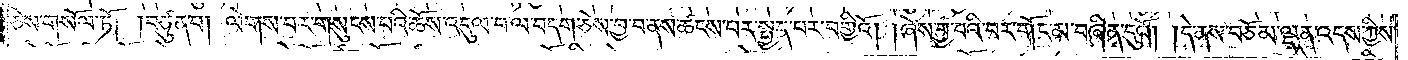ཅེས་གསོལ་ཏོ། །བཙུན་པ། ལེགས་པར་གསུངས་པའི་ཆོས་འདུལ་བ་ལ་བདག་ཅེས་བྱ་བ་ནས་ཚངས་པར་སྤྱད་པར་བགྱིའོ། །ཞེས་བྱ་བའི་བར་གོང་མ་བཞིན་དུའོ། །དེ་ནས་བཅོམ་ལྡན་འདས་ཀྱིས་
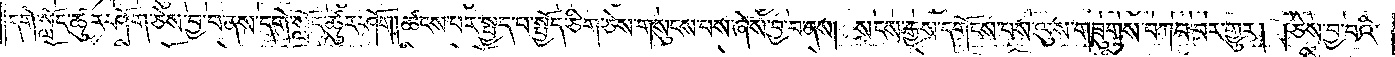དགེ་སློང་ཚུར་ཤོག་ཅེས་བྱ་བ་ནས་དགེ་སློང་ཚུར་ཤོག །ཚངས་པར་སྤྱད་པ་སྤྱོད་ཅིག་ཅེས་གསུངས་པས་ཞེས་བྱ་བ་ནས། སངས་རྒྱས་དགོངས་པས་ལུས་གཟུགས་བཀབ་བར་གྱུར། །ཅེས་བྱ་བའི་
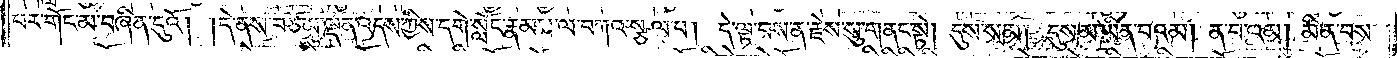པར་གོང་མ་བཞིན་དུའོ། །དེ་ནས་བཅོམ་ལྡན་འདས་ཀྱིས་དགེ་སློང་རྣམས་ལ་བཀའ་སྩལ་བ། དེ་ལྟ་བས་ན་རྗེས་སུ་གནང་སྟེ། དུས་སམ། དུས་མ་ཡིན་པའམ། ན་བ་འམ། མི་ན་བས་
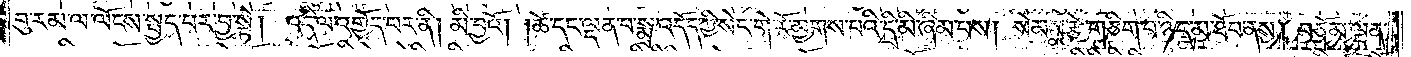བུ་རམ་ལ་ལོངས་སྤྱད་པར་བྱ་སྟེ། འདི་ལ་འགྱོད་པར་ནི། མི་བྱའོ། །ཚེ་དང་ལྡན་པ་སྨྲ་འདོད་ཀྱི་སེང་གེ་རོ་མྱགས་པའི་དྲི་མི་ཞིམ་པས། སེམས་རྩེ་གཅིག་པ་ཉིད་མ་ཐོབ་ནས། བཅོམ་ལྡན་
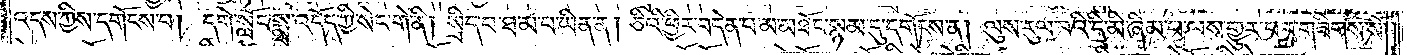འདས་ཀྱིས་དགོངས་པ། དགེ་སློང་སྨྲ་འདོད་ཀྱི་སེང་གེ་ནི། སྲིད་པ་ཐ་མ་པ་ཡིན་ན། ཅིའི་ཕྱིར་བདེན་པ་མ་མཐོང་སྙམ་དུ་དགོངས་ན། ལུས་རུལ་བའི་དྲི་མི་ཞིམ་པ་ལས་གྱུར་བར་གཟིགས་སོ༎
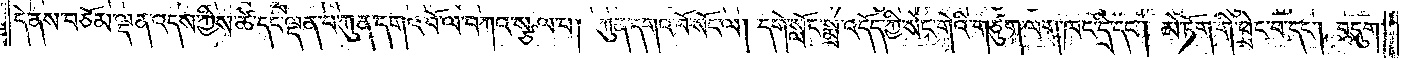དེ་ནས་བཅོམ་ལྡན་འདས་ཀྱིས་ཚེ་དང་ལྡན་པ་ཀུན་དགའ་བོ་ལ་བཀའ་སྩལ་པ། ཀུན་དགའ་བོ་སོང་ལ། དགེ་སློང་སྨྲ་འདོད་ཀྱི་སེང་གེའི་གཙུག་ལག་ཁང་དྲི་དང༌། མེ་ཏོག་གི་ཕྲེང་བ་དང༌། བདུག་
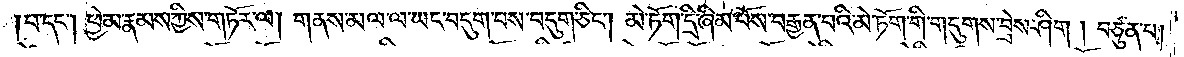།པ་དང༌། ཕྱེ་མ་རྣམས་ཀྱིས་གཏོར་ལ། གནས་མལ་ལ་ཡང་བདུག་པས་བདུག་ཅིང༌། མེ་ཏོག་དྲི་ཞིམ་པོས་བརྒྱན་པའི་མེ་ཏོག་གི་གདུགས་བྲེས་ཤིག །བཙུན་པ།
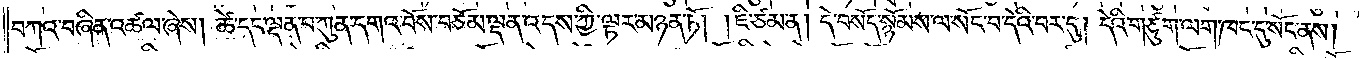བཀའ་བཞིན་འཚལ་ཞེས། ཚེ་དང་ལྡན་པ་ཀུན་དགའ་བོས་བཅོམ་ལྡན་འདས་ཀྱི་ལྟར་མཉན་ཏོ། །ཇི་ཙམ་ན། དེ་བསོད་སྙོམས་ལ་སོང་བ་དེའི་བར་དུ། དེའི་གཙུག་ལག་ཁང་དུ་སོང་ནས།
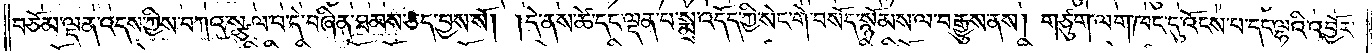བཅོམ་ལྡན་འདས་ཀྱིས་བཀའ་སྩལ་པ་དེ་བཞིན་ཐམས་ཅད་བྱས་སོ། །དེ་ནས་ཚེ་དང་ལྡན་པ་སྨྲ་འདོད་ཀྱི་སེང་གེ་བསོད་སྙོམས་ལ་བརྒྱུས་ནས། གཙུག་ལག་ཁང་དུ་འོངས་པ་དང་ལྷའི་འབྱོར་
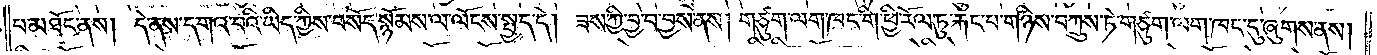པ་མཐོང་ནས། དེ་ནས་དགའ་བའི་ཡིད་ཀྱིས་བསོད་སྙོམས་ལ་ལོངས་སྤྱད་དེ། ཟས་ཀྱི་བྱ་བ་བྱས་ནས། གཙུག་ལག་ཁང་གི་ཕྱི་རོལ་ཏུ་རྐང་པ་གཉིས་བཀྲུས་ཏེ་གཙུག་ལག་ཁང་དུ་ཞུགས་ནས།
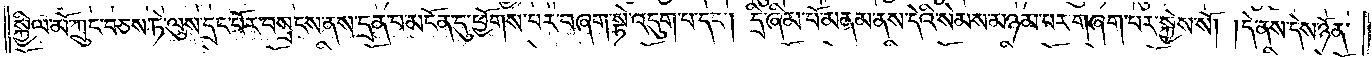སྐྱིལ་མོ་ཀྲུང་བཅས་ཏེ་ལུས་དྲང་པོར་བསྲངས་ནས་དྲན་པ་མངོན་དུ་ཕྱོགས་པར་བཞག་སྟེ་འདུག་པ་དང༌། དྲི་ཞིམ་པོ་མནམ་ནས་དེའི་སེམས་མཉམ་པར་གཞག་པར་སྐྱེས་སོ། །དེ་ནས་དེས་ཉོན་
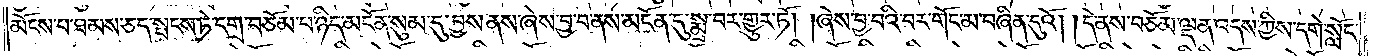མོངས་པ་ཐམས་ཅད་སྤངས་ཏེ་དགྲ་བཅོམ་པ་ཉིད་མངོན་སུམ་དུ་བྱས་ནས་ཞེས་བྱ་བ་ནས་མངོན་དུ་སྨྲ་བར་གྱུར་ཏོ། །ཞེས་བྱ་བའི་བར་གོང་མ་བཞིན་དུའོ། །དེ་ནས་བཅོམ་ལྡན་འདས་ཀྱིས་དགེ་སློང་
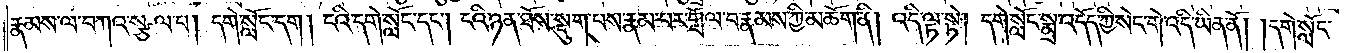རྣམས་ལ་བཀའ་སྩལ་པ། དགེ་སློང་དག །ངའི་དགེ་སློང་དང༌། ངའི་ཉན་ཐོས་སྡུག་པས་རྣམ་པར་གྲོལ་བ་རྣམས་ཀྱི་མཆོག་ནི། འདི་ལྟ་སྟེ། དགེ་སློང་སྨྲ་འདོད་ཀྱི་སེང་གེ་འདི་ཡིན་ནོ། །དགེ་སློང་
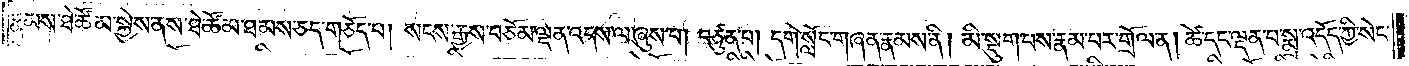རྣམས་ཐེ་ཚོམ་སྐྱེས་ནས་ཐེ་ཚོམ་ཐམས་ཅད་གཅོད་པ། སངས་རྒྱས་བཅོམ་ལྡན་འདས་ལ་ཞུས་པ། བཙུན་པ། དགེ་སློང་གཞན་རྣམས་ནི། མི་སྡུག་པས་རྣམ་པར་གྲོལ་ན། ཚེ་དང་ལྡན་པ་སྨྲ་འདོད་ཀྱི་སེང་
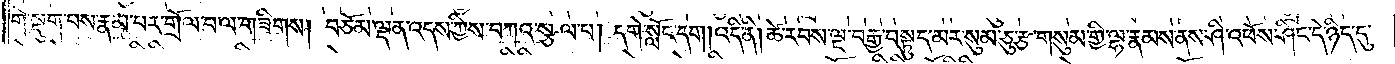གེ་སྡུག་པས་རྣམ་པར་གྲོལ་བ་ལ་གཟིགས། བཅོམ་ལྡན་འདས་ཀྱིས་བཀའ་སྩལ་པ། དགེ་སློང་དག། འདི་ནི། ཚེ་རབས་ལྔ་བརྒྱ་བསྟུད་མར་སུམ་ཅུ་རྩ་གསུམ་གྱི་ལྷ་རྣམས་ནས་ཤི་འཕོས་ཤིང་དེ་ཉིད་དུ་
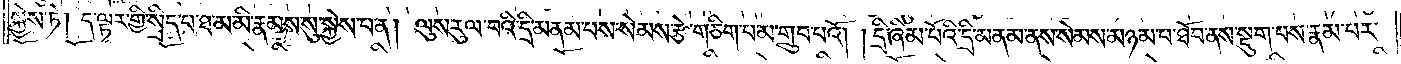སྐྱེས་ཏེ། ད་ལྟར་གྱི་སྲིད་པ་ཐ་མ་མི་རྣམས་སུ་སྐྱེས་པ་ན། ལུས་རུལ་བའི་དྲི་མནམ་པས་སེམས་རྩེ་གཅིག་པ་མ་གྲུབ་པའོ། །དྲི་ཞིམ་པོའི་དྲི་མནམ་ནས་སེམས་མཉམ་པ་ཐོབ་ནས་སྡུག་པས་རྣམ་པར་
